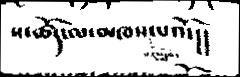ས་ཚོད་ལ་མཁས་པར་སློབ་པའོ་།།
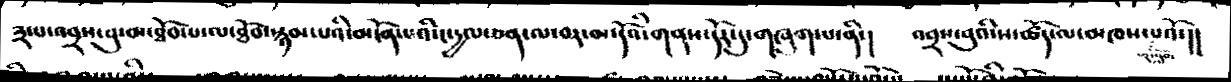༣་པ་འབྲས་བུ་མ་ཐོབ་པ་ལ་ཐོབ་པའི་མངོན་པའི་ང་དྱལ་ཅན་ལ་བར་མ་དོའི་གནས་དོར་དུ་གཞུག་པ་ནི་།  འབྲས་བུའི་ས་ཚོད་ལ་མཁས་པར་སློབ་པའོ་།།
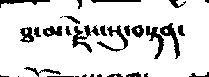ཐ་མ་རྗེས་སུ་བསྟན་
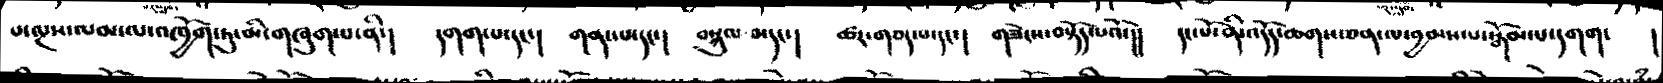པ་ལྔས་ལམ་ལ་འཁྱོག་ཏུ་མི་གཞུག་པ་ནི་།  དགག་པ་དང་།  གནང་པ་དང་།  བསྐུལ་མ་དང་།  ཚར་གཅད་པ་དང་།  གཟེངས་བསྟོད་པའོ་།།  དང་པོ་ནི་འདོད་ཆགས་ཅན་ལ་བྱམས་པ་སྒོམ་པ་དགག་  །
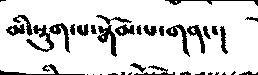མི་སྡུག་པ་སྒོམ་པ་གནང་།
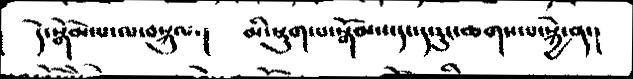དེ་སྒོམ་པ་ལ་བསྐུལ་།  མི་སྡུག་པ་སྒོམ་པ་དང་དབུང་ཆགས་པ་སྐྱེ་ན་།
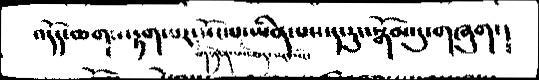འདོད་ཆགས་རྟག་པར་སོང་པ་ཡིན་པས་ད་རུང་སྒོམ་དུ་གཞུག་།
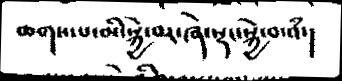ཆགས་པ་མི་སྐྱེ་བར་ཞེ་སྡང་སྐྱེ་བ་འཾ་།
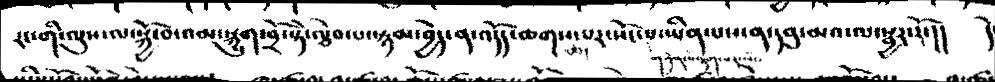རང་གི་ལུས་ལ་སྐྱེ་བཔ་འམ་སྐྱུག་བྲོ་སྟེ་ལྕེབ་པ་སྙམ་བྱེད་ན་འདོད་ཆགས་པར་སོང་པ་ཡིན་པས་ན་དབུ་མའ་ལ་སྦྱར་རོ་།།  དེ་
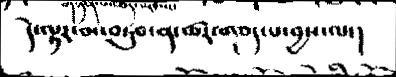དེ་ལྟར་མ་བཏུབ་ན་ཚར་གཅད་པ་བྱས་ལ་།
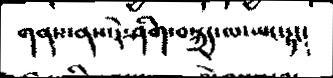གནས་ནས་རེ་ཤིག་བསྐྲད་ལ་ཡང་རྟ་།
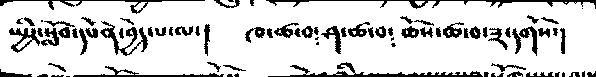སྤྱིར་སློབ་དཔོན་བྱེད་པ་ལ་།  ཁ་ཚ་བ་ཤ་ཚ་བ༴  ཆོས་ཚ་བ་༣་དགོས་།
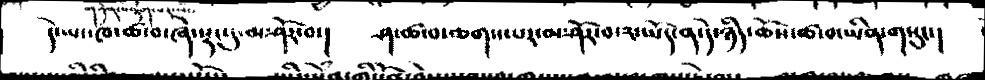དེ་ཡང་ཁ་ཚ་བ་ཞེ་རྡང་དུ་མ་ཤོར་བ་།  ཤ་ཚ་བ་ཆགས་པར་མ་ཤོར་བ་༢་ཡོད་ན་དེ་ཉིད་ཆོས་ཚ་བ་ཡིན་གསུང་།
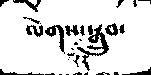ལེགས་སྒྲུབ་
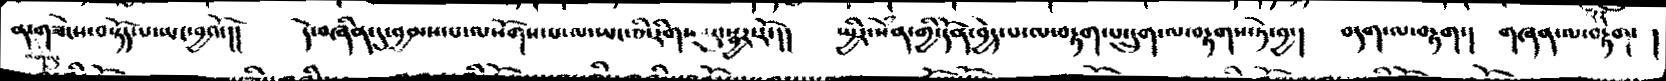ན་གཟེངས་བསྟོད་པ་ཡང་བྱའོ་།།  དེ་བཞིན་དུ་བྱམས་པ་ལསོགས་པ་ལ་ཡང་ཅི་རིགས་སུ་སྦྱར་རོ་།།  སྤྱིར་སེཾན་གྱི་དོན་བྱེད་པ་ལ་བརྟག་པ་དྲུག་ལ་བརྟགས་ཏེ་བྱ་།  བདག་ལ་བརྟག་།  གཞན་ལ་བརྟག་ །
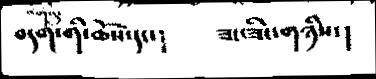བདག་ནི་ཆོས་དང་།  ཟང་ཟིང་གཉིས་།
